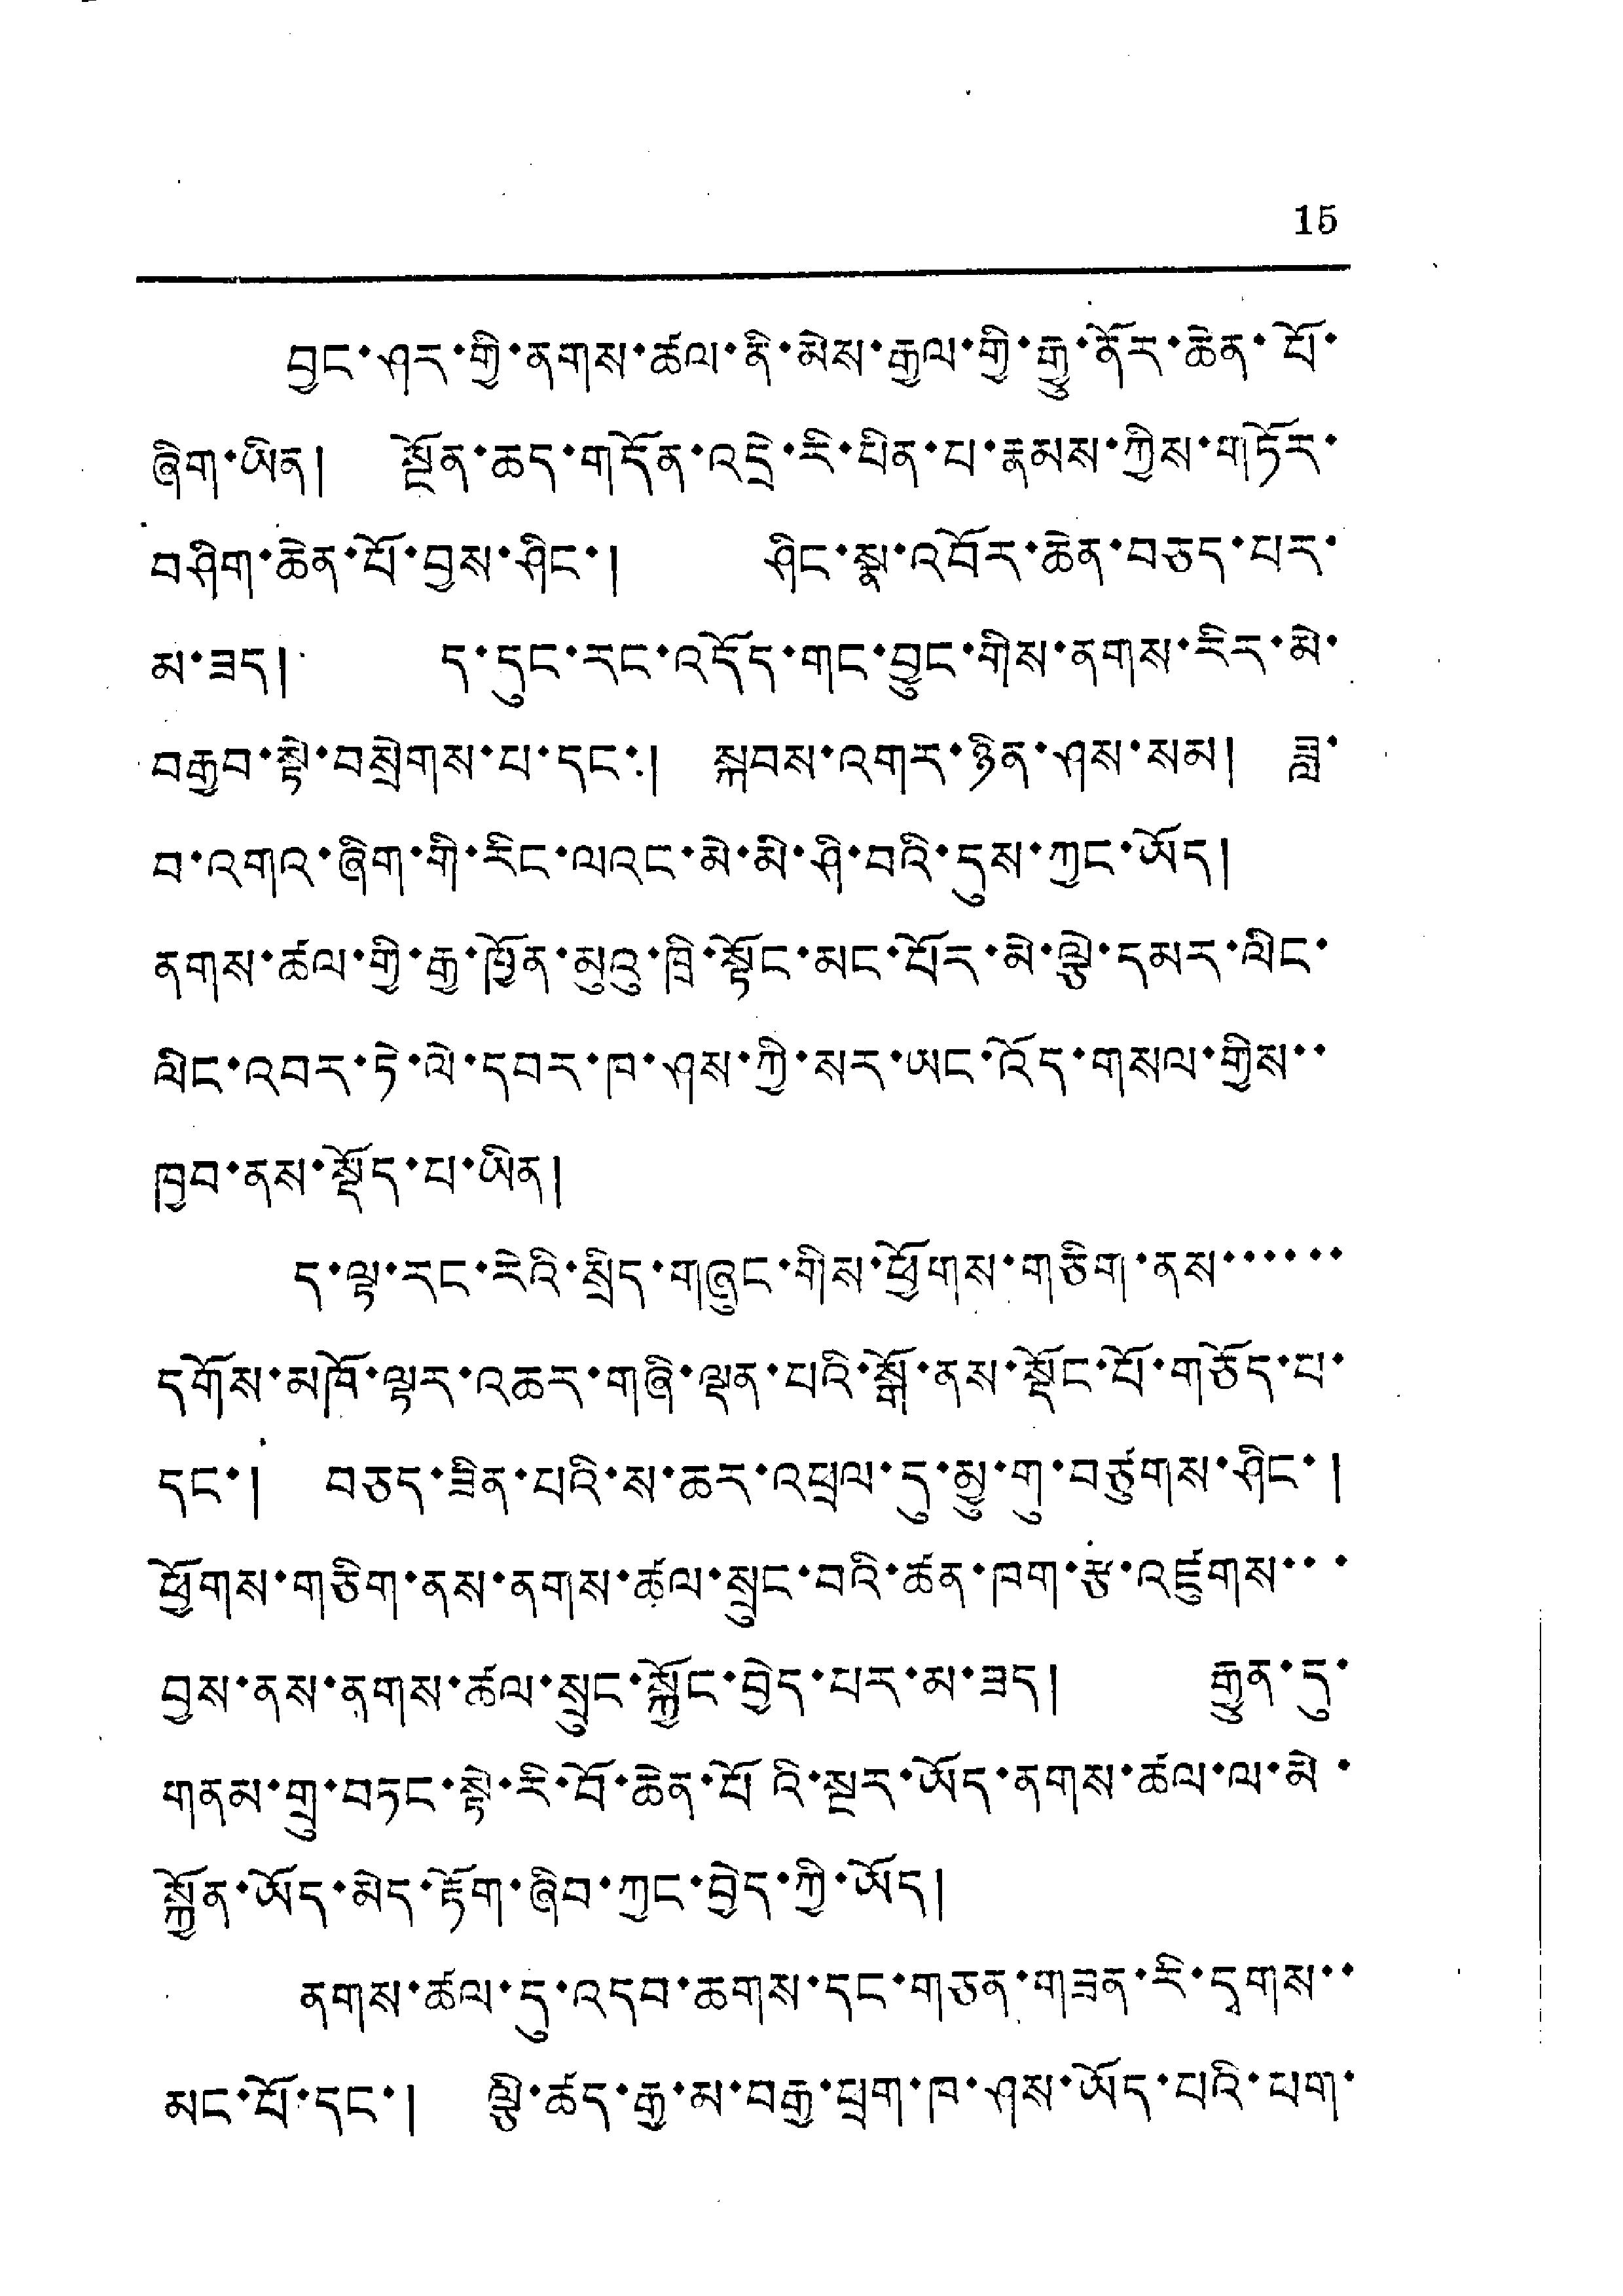15
བྱང་ཤར་གྱི་ནགས་ཚལ་ནི་མེས་རྒྱལ་གྱི་རྒྱུ་ནོར་ཆེན་པོ་
ཞིག་ཡིན། སྔོན་ཆད་གདོན་འདྲེ་རི་པིན་པ་རྣམས་ཀྱིས་གཏོར་
བཤིག་ཆེན་པོ་བྱས་ཤིང་། ཤིང་སྣ་འབོར་ཆེན་བཅད་པར་
མ་ཟད། ད་དུང་རང་འདོད་གང་བྱུང་གིས་ནགས་རིར་མེ་
བརྒྱབ་སྟེ་བསྲེགས་པ་དང་། སྐབས་འགར་ཉིན་ཤས་སམ། ཟླ་
བ་འགའ་ཞིག་གི་རིང་ལའང་མེ་མི་ཤི་བའི་དུས་ཀྱང་ཡོད་
ནགས་ཚལ་གྱི་རྒྱ་ཁྱོན་མུའུ་ཁྲི་སྟོང་མང་པོར་མེ་ལྕེ་དམར་ལིང་
ལིང་འབད་ཏེ་ལེ་དབར་ཁ་ཤས་ཀྱི་སར་ཡང་འོད་གསལ་གྱིས་་
ཁྱབ་ནས་སྡོད་པ་ཡིན།
ད་ལྟ་རང་རེའི་སྲིད་གཞུང་གིས་ཕྱོགས་གཅིག་ནས་་་་་་
དགོས་མཁོ་ལྟར་འཆར་གཞི་ལྡན་པའི་སྒོ་ནས་སྡོང་པོ་གཅོད་པ་
དང་། བཅད་ཟིན་པའི་ས་ཆར་འཕྲལ་དུ་མྱུ་གུ་བཙུགས་ཤིང་།
ཕྱོགས་གཅིག་ནས་ནགས་ཚལ་སྲུང་བའི་ཚན་ཁག་རྩ་འཛུགས་་་
བྱས་ནས་ནགས་ཚལ་སྲུང་སྐྱོང་བྱེད་པར་མ་ཟད། རྒྱུན་དུ་
གནམ་གྲུ་བཏང་སྟེ་རི་བོ་ཆེན་པོའི་སྔར་ཡོད་ནགས་ཚལ་ལ་མེ་
སྐྱོན་ཡོད་མེད་རྟོག་ཞིབ་ཀྱང་བྱེད་ཀྱི་ཡོད།
ནགས་ཚལ་དུ་འདབ་ཆགས་དང་གཅན་གཟན་རི་དྭགས་་
མང་པོ་དང་། ལྕི་ཚད་རྒྱ་མ་བརྒྱ་ཕྲག་ཁ་ཤས་ཡོད་པའི་པག་
